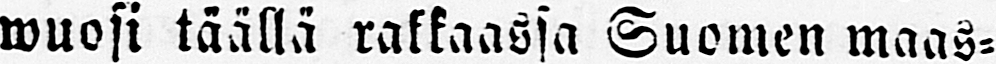wuosi täällä rakkaassa Suomen maas-
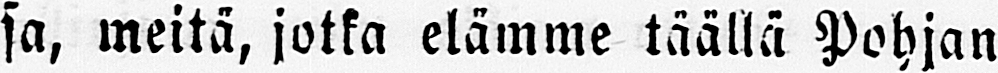sa, meitä, jotka elämme täällä Pohjan
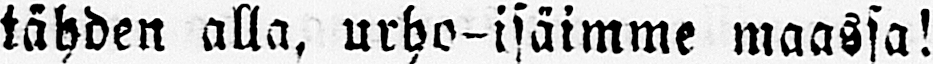tähden alla, urho-isäimme maassa!
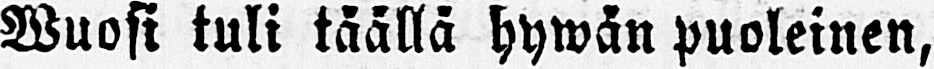Wuosi tuli täällä hywän puoleinen,
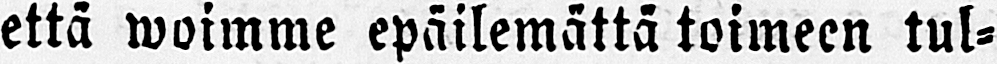että woimme epäilemättä toimeen tul-
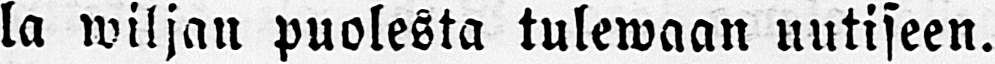la wiljan puolesta tulewaan uutiseen.
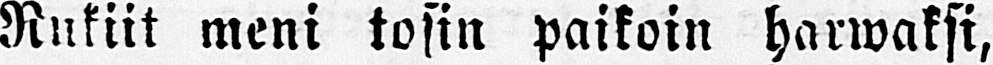Rukiit meni tosin paikoin harwaksi,
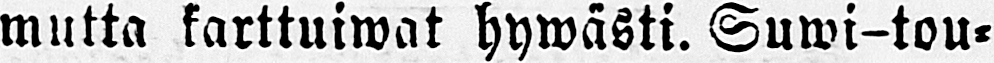mutta karttuiwat hywästi. Suwi-tou-
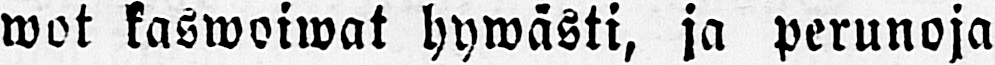wot kaswoiwat hywästi, ja perunoja
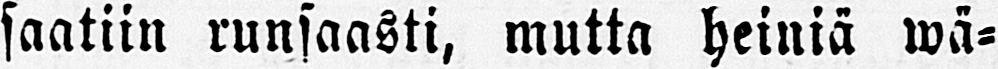saatiin runsaasti, mutta heiniä wä-
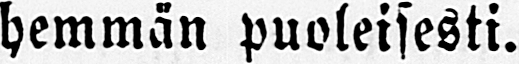hemmän puoleisesti.
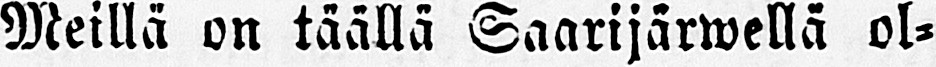Meillä on täällä Saarijärwellä ol-
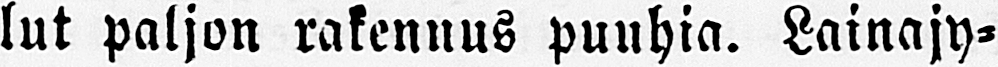lut paljon rakennus puuhia. Lainajy-
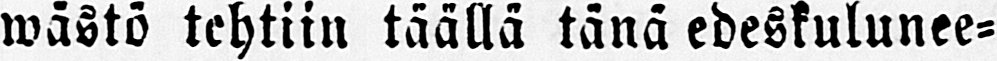wästö tehtiin täällä tänä edeskulunee-
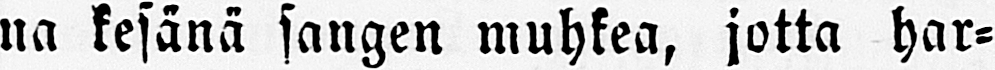na kesänä sangen muhkea, jotta har-
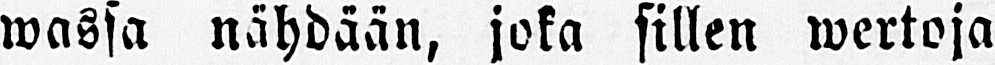wassa nähdään, joka sillen wertoja
